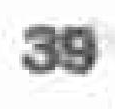39
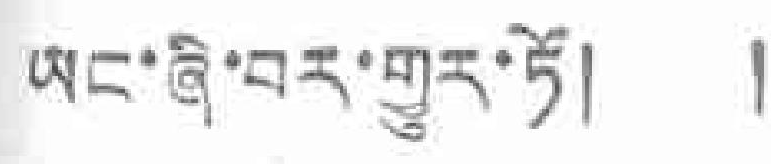ཡང་ཞི་བར་གྱུར་ཏོ། །
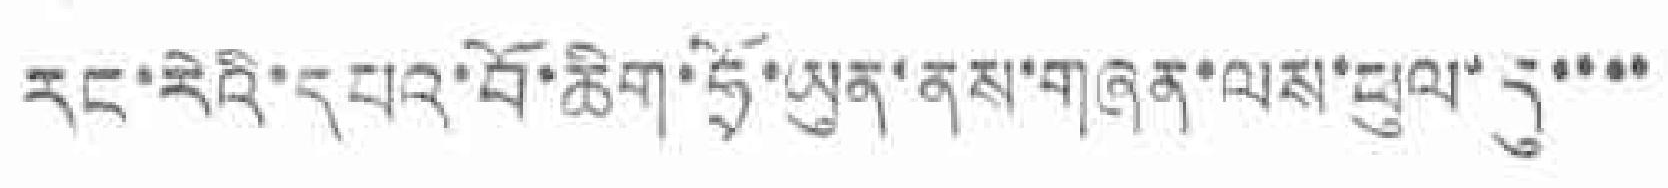རང་རེའི་དཔའ་བོ་ཆིག་ཧྲོ་ཡུན་ནས་གཞན་ལས་ཕུལ་དུ་་་་
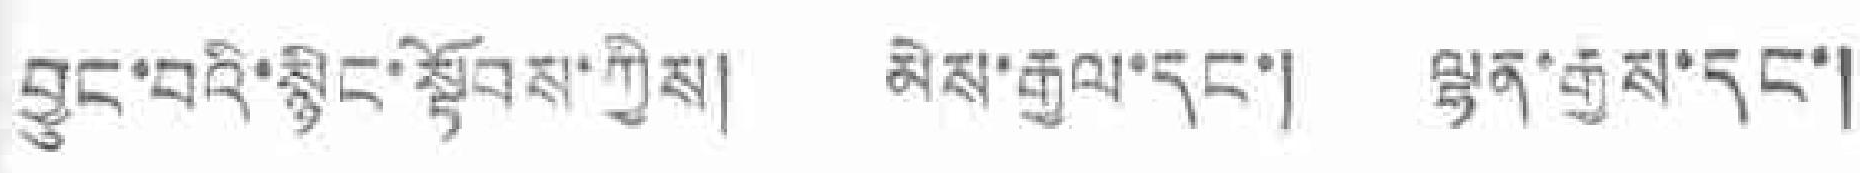བྱུང་བའི་སྙིང་སྟོབས་ཀྱིས། མེས་རྒྱལ་དང་། ལྷན་རྒྱས་དང་།
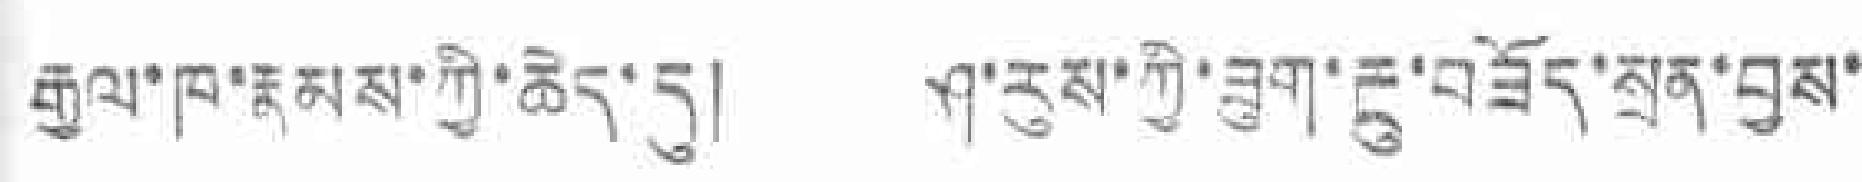རྒྱལ་ཁ་རྣམས་ཀྱི་ཆེད་དུ། ཤ་རུས་ཀྱི་ཟུག་རྔུ་བཟོད་སྲན་བྱས་
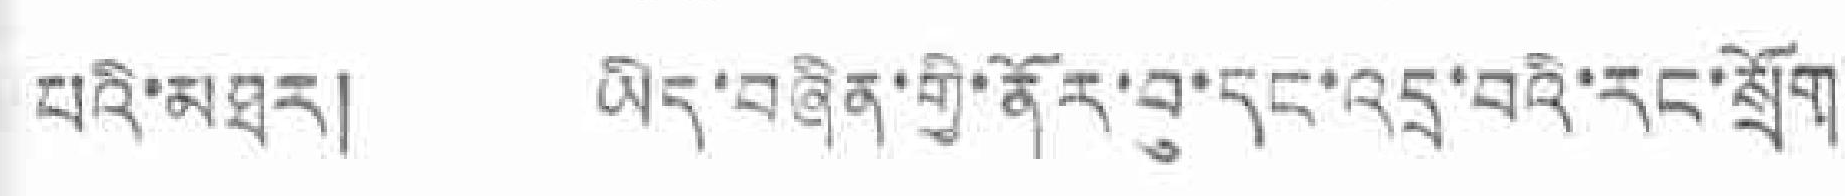པའི་མཐར། ཡིད་བཞིན་གྱི་ནོར་བུ་དང་འདྲ་བའི་རང་སྲོག་
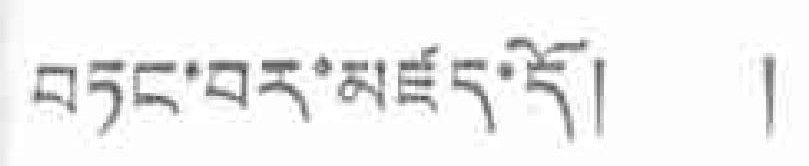བཏང་བར་མཛད་དོ། །
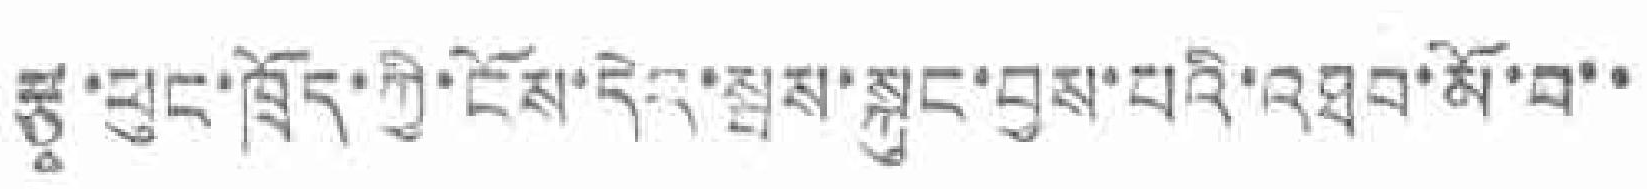རྩྭ་ཕུང་ཁྲོད་ཀྱི་ངོས་དེར་སྦས་སྐུང་བྱས་པའི་འཐབ་མོ་བ་་
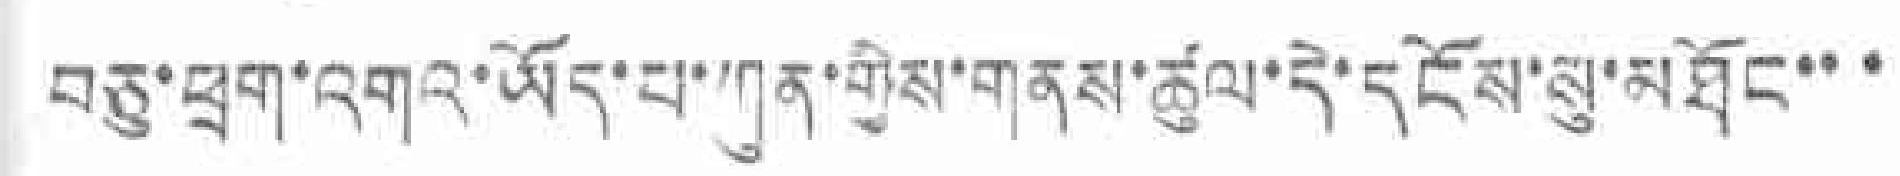བཅུ་ཕྲག་འགའ་ཡོད་པ་ཀུན་གྱིས་གནས་ཚུལ་དེ་དངོས་སུ་མཐོང་་་
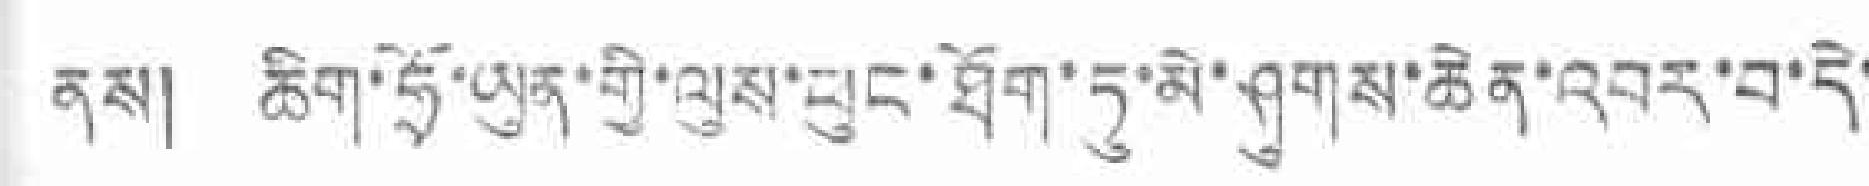ནས། ཆིག་ཧྲོ་ཡུན་གྱི་ལུས་ཕུང་ཐོག་ཏུ་མེ་ཤུགས་ཆེན་འབར་བ་དེ་
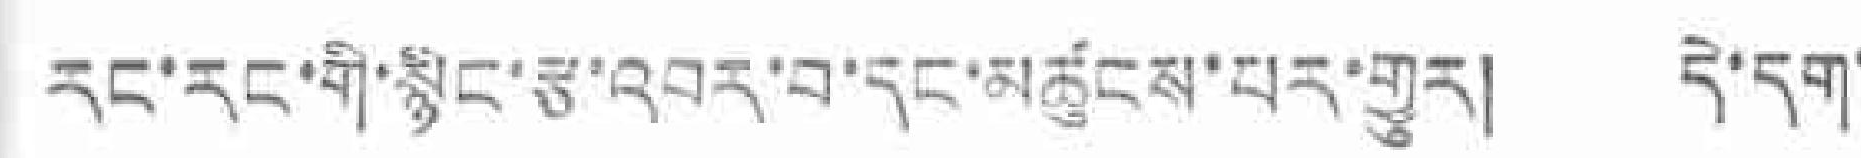རང་རང་གི་སྙིང་རྩ་འབད་བ་དང་མཚུངས་པར་གྱུར། དེ་དག་
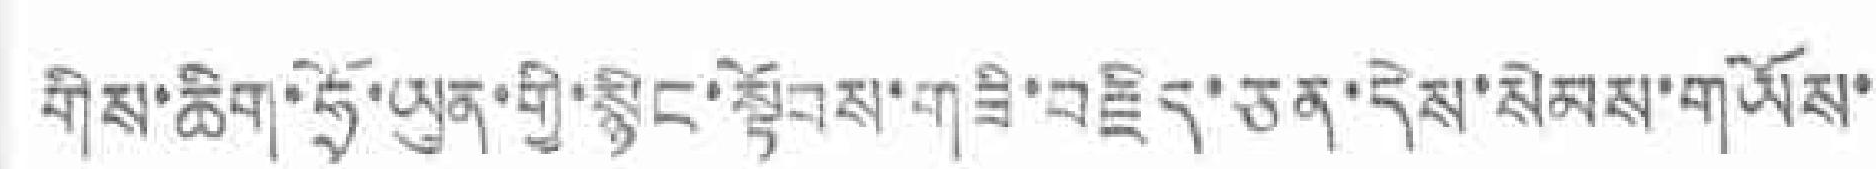གིས་ཆིག་ཧྲོ་ཡུན་གྱི་སྙིང་སྟོགས་གཟི་བརྗིད་ཅན་དེས་སེམས་གཡོས་
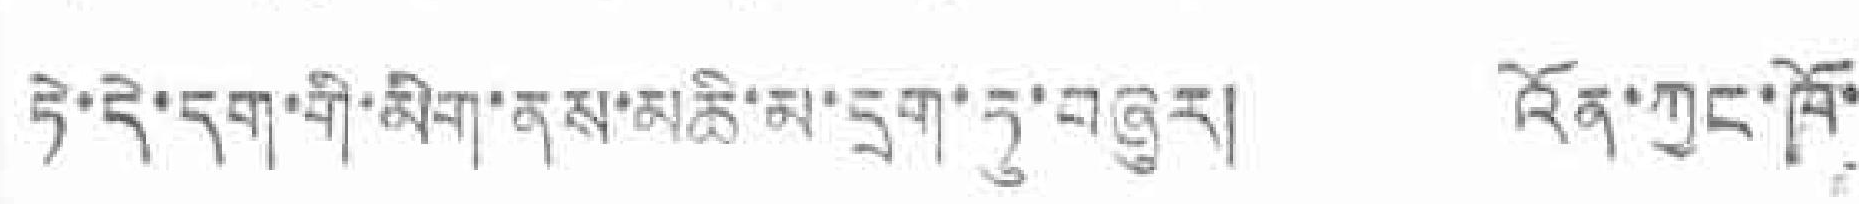ཏེ་དེ་དག་གི་མིག་ནས་མཆི་མ་དྲག་ཏུ་གཞུར། འོན་ཀྱང་ཁོ་
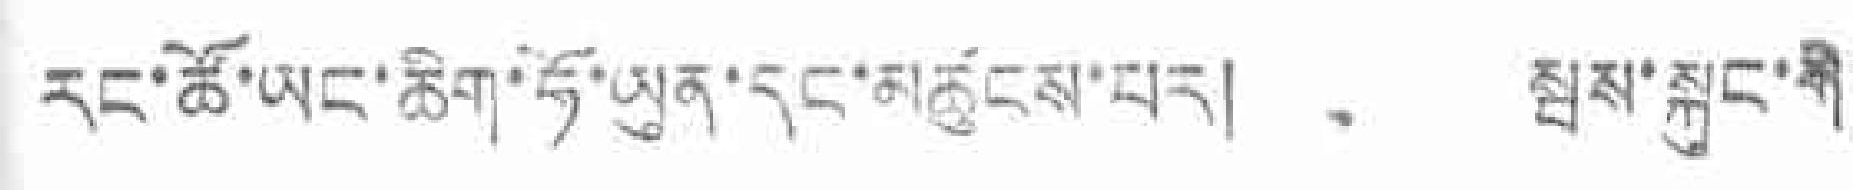རང་ཚོ་ཡང་ཆིག་ཧྲོ་ཡུན་དང་མཚུངས་པར། སྦས་སྐུང་གི་
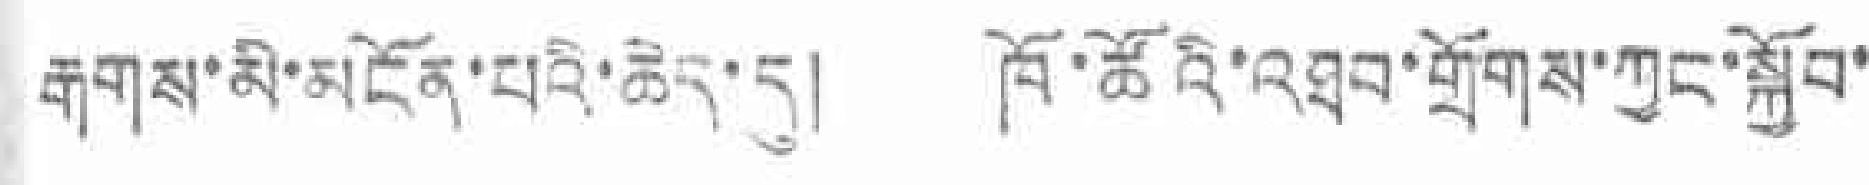རྒགས་མི་མངོན་པའི་ཆེད་དུ། ཁོ་ཚོའི་འཐབ་གྲོགས་ཀྱང་སྐྱོབ་
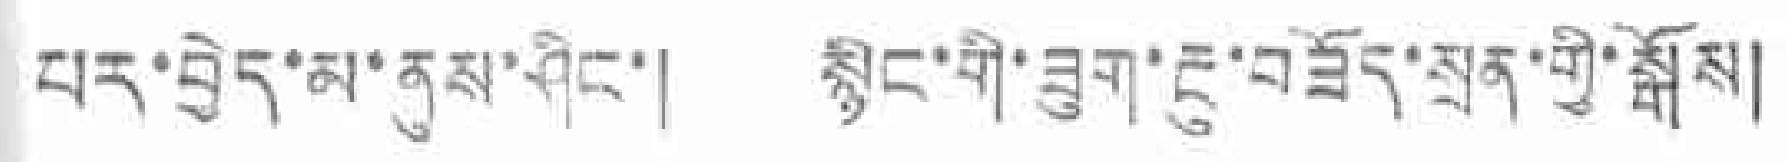པར་བྱེད་མ་ནུས་ཤིང་། སྙིང་གི་ཟུག་རྔུ་བཟོད་སྲན་གྱི་སྒོས།
